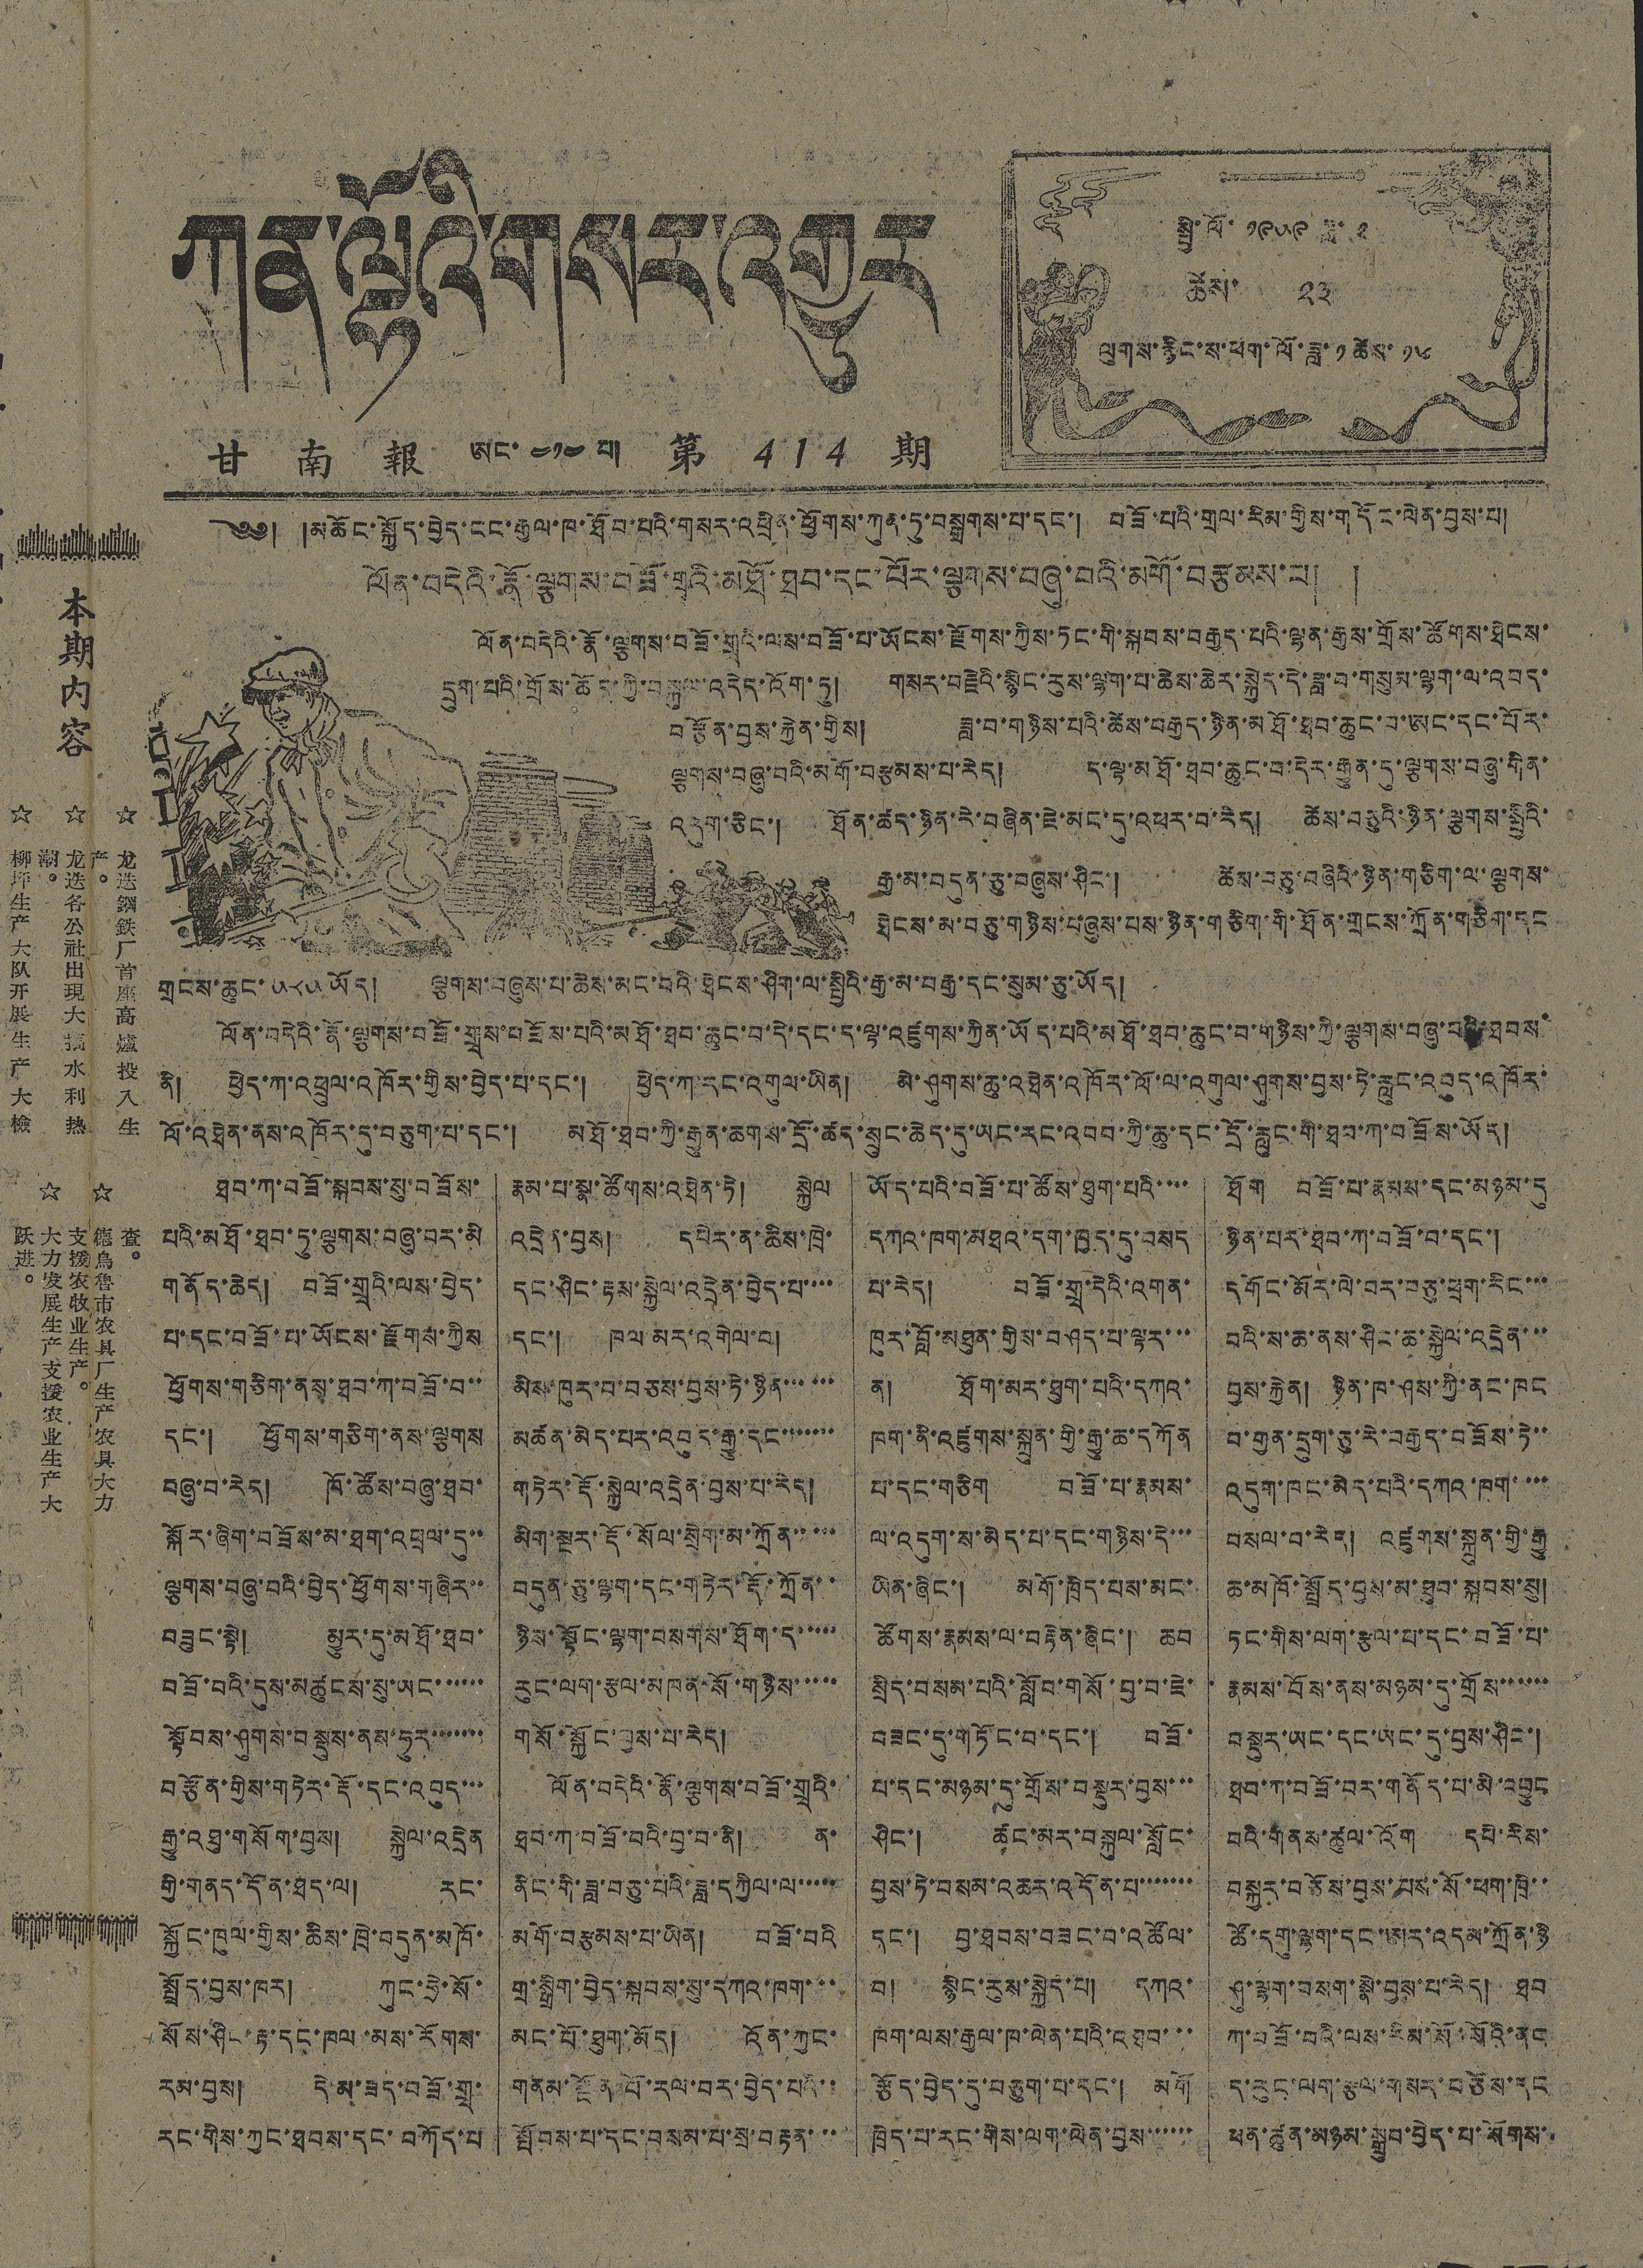ཀན་ལྷོའི་གསར་འགྱུར
甘 南 報 ཨང་ ༤༡༤ པ། 第 414 期
སྤྱི་ལོ་ ༡༩༥༩ ཟླ་ ༢
ཚེས་ ༢༣
ལུགས་རྙིང་ས་ཕག་ལོ་ཟླ་ ༡ ཚེས་ ༡༦
本期內容
☆ 龙迭鋼鉄厂首座高爐投入生
产。
☆ 龙迭各公社出現大搞水利热
潮。
☆ 柳坪生产大队开展生产大檢
查。
☆ 德烏魯市农具厂生产农具大力
支援农牧业生产。
☆ 大力发展生产支援农业生产大
跃进。
༄༅། །མཆོང་སྐྱོད་བྱེད་ངང་རྒྱལ་ཁ་ཐོབ་པའི་གསར་འཕྲིན་ཕྱོགས་ཀུན་ཏུ་བསྒྲགས་པ་དང་། བཟོ་པའི་གྲལ་རིམ་གྱིས་གདོང་ལེན་བྱས་པ།
ལོན་བདེའི་རྣོ་ལྕགས་བཟོ་གྲྭའི་མཐོ་ཐབ་དང་པོར་ལྕགས་བཞུ་བའི་མགོ་བརྩམས་པ། །
ལོན་བདེའི་རྣོ་ལྕགས་བཟོ་གྲྭའི་ལས་བཟོ་པ་ཡོངས་རྫོགས་ཀྱིས་ཏང་གི་སྐབས་བརྒྱད་པའི་ལྷན་རྒྱས་གྲོས་ཚོགས་ཐེངས་
དྲུག་པའི་གྲོས་ཆོད་ཀྱི་བསྐུལ་འདེད་འོག་ཏུ། གསར་བརྗེའི་སྙིང་རུས་ལྷག་པ་ཆེས་ཆེར་སྐྱེད་དེ་ཟླ་བ་གསུམ་ལྷག་ལ་འབད་
བརྩོན་བྱས་རྐྱེན་གྱིས། ཟླ་བ་གཉིས་པའི་ཚེས་བརྒྱད་ཉིན་མཐོ་ཐབ་ཆུང་བ་ཨང་དང་པོར་
ལྕགས་བཞུ་བའི་མགོ་བརྩམས་པ་རེད། ད་ལྟ་མཐོ་ཐབ་ཆུང་བ་དེར་རྒྱུན་དུ་ལྕགས་བཞུ་གིན་
འདུག་ཅིང་། ཐོན་ཚད་ཉིན་རེ་བཞིན་ཇེ་མང་དུ་འཕར་བ་རེད། ཚེས་བཅུའི་ཉིན་ལྕགས་སྤྱིའི་
རྒྱ་མ་བདུན་ཅུ་བཞུས་ཤིང་། ཚེས་བཅུ་བཞིའི་ཉིན་གཅིག་ལ་ལྕགས་
ཐེངས་མ་བཅུ་གཉིས་བཞུས་པས་ཉིན་གཅིག་གི་ཐོན་གྲངས་ཀྲོན་གཅིག་དང
གྲངས་ཆུང་ ༥༨༥ ཡོད། ལྕགས་བཞུས་པ་ཆེས་མང་བའི་ཐེངས་ཤིག་ལ་སྤྱིའི་རྒྱ་མ་བརྒྱ་དང་སུམ་ཅུ་ཡོད།
ལོན་བདེའི་རྣོ་ལྕགས་བཟོ་གྲྭས་བཟོས་པའི་མཐོ་ཐབ་ཆུང་བ་དེ་དང་ད་ལྟ་འཛུགས་ཀྱིན་ཡོད་པའི་མཐོ་ཐབ་ཆུང་བ་གཉིས་ཀྱི་ལྕགས་བཞུ་བའི་ཐབས་
ནི། ཕྱེད་ཀ་འཕྲུལ་འཁོར་གྱིས་བྱེད་པ་དང་། ཕྱེད་ཀ་རང་འགུལ་ཡིན། མེ་ཤུགས་ཆུ་འཐེན་འཁོར་ལོ་ལ་འགུལ་ཤུགས་བྱས་ཏེ་རླུང་འབུད་འཁོར་
ལོ་འཐེན་ནས་འཁོར་དུ་བཅུག་པ་དང་། མཐོ་ཐབ་ཀྱི་རྒྱུན་ཆགས་དྲོ་ཚད་སྲུང་ཆེད་དུ་ཡང་རང་འབབ་ཀྱི་ཆུ་དང་དྲོ་རླུང་གི་ཐབ་ཀ་བཟོས་ཡོད།
ཐབ་ཀ་བཟོ་སྐབས་སུ་བཟོས་
པའི་མཐོ་ཐབ་ཏུ་ལྕགས་བཞུ་བར་མི
གནོད་ཆེད། བཟོ་གྲྭའི་ལས་བྱེད་
པ་དང་བཟོ་པ་ཡོངས་རྫོགས་ཀྱིས་
ཕྱོགས་གཅིག་ནས་ཐབ་ཀ་བཟོ་བ་་
དང་། ཕྱོགས་གཅིག་ནས་ལྕགས
བཞུ་བ་རེད། ཁོ་ཚོས་བཞུ་ཐབ་
སྐོར་ཞིག་བཟོས་མ་ཐག་འཕྲལ་དུ་་
ལྕགས་བཞུ་བའི་བྱེད་ཕྱོགས་གཞིར་་
བཟུང་སྟེ། མྱུར་དུ་མཐོ་ཐབ་
བཟོ་བའི་དུས་མཚུངས་སུ་ཡང་་་་་་
སྟོབས་ཤུགས་བསྡུས་ནས་ཧུར་་་་་་་
བརྩོན་གྱིས་གཏེར་རྡོ་དང་འབུད་་་
རྒྱུ་འཐུ་གསོག་བྱས། སྐྱེལ་འདྲེན
གྱི་གནད་དོན་ཐད་ལ། རང་
སྐྱོང་ཁུལ་གྱིས་ཆིས་ཁྲེ་བདུན་མཁོ་
སྤྲོད་བྱས་ཁར། ཀུང་ཧྲེ་སོ་
སོས་ཤིང་རྟ་དང་ཁལ་མས་རོགས་
རམ་བྱས། དེ་མ་ཟད་བཟོ་གྲྭ་
རང་གིས་ཀྱང་ཐབས་དང་བཀོད་པ
རྣམ་པ་སྣ་ཚོགས་འཐེན་ཏེ། སྐྱེལ
འདྲེན་བྱས། དཔེར་ན་ཆིས་ཁྲེ་
དང་ཤིང་རྟས་སྐྱེལ་འདྲེན་བྱེད་པ་་་་
དང་། ཁལ་མར་འགེལ་བ།
མིས་ཁུར་བ་བཅས་བྱས་ཏེ་ཉིན་་་་་་
མཚན་མེད་པར་འབུད་རྒྱུ་དང་་་་་་་
གཏེར་རྡོ་སྐྱེལ་འདྲེན་བྱས་པ་རེད།
མིག་སྔར་རྡོ་སོལ་སྲེག་མ་ཀྲོན་་་་་
བདུན་ཅུ་ལྷག་དང་གཏེར་རྡོ་ཀྲོན་་
ཉིས་སྟོང་ལྷག་བསགས་ཐོག་ད་་་་་
རུང་ལག་རྩལ་མཁན་སོ་གཉིས་་་་་
གསོ་སྐྱོང་བྱ་པ་རེད།
ལོན་བདེའི་རྣོ་ལྕགས་བཟོ་གྲྭའི་
ཐབ་ཀ་བཟོ་བའི་བྱ་བ་ནི། ན་
ནིང་གི་ཟླ་བཅུ་པའི་ཟླ་དཀྱིལ་ལ་་་་་
མགོ་བརྩམས་པ་ཡིན། བཟོ་བའི་
གྲ་སྒྲིག་བྱེད་སྐབས་སུ་དཀའ་ཁག་་་
མང་པོ་ཐུག་མོད། འོན་ཀྱང་
གནམ་སྔོན་པོ་རལ་བར་བྱེད་པའི་་
སྤོབས་པ་དང་བསམ་པ་སྲ་བརྟན་་་
ཡོད་པའི་བཟོ་པ་ཚོས་ཐུག་པའི་་་་
དཀའ་ཁག་མཐའ་དག་ཁྱད་དུ་བསད
པ་རེད། བཟོ་གྲྭ་དེའི་འགན་
ཁུར་བློ་མཐུན་གྱིས་བཤད་པ་ལྟར་་་
ན། ཐོག་མར་ཐུག་པའི་དཀའ་
ཁག་ནི་འཛུགས་སྐྲུན་གྱི་རྒྱུ་ཆ་དཀོན
པ་དང་གཅིག བཟོ་པ་རྣམས་
ལ་འདུག་ས་མེད་པ་དང་གཉིས་དེ་་་
ཡིན་ཞིང་། མགོ་ཁྲིད་པས་མང་
ཚོགས་རྣམས་ལ་བརྟེན་ཞིང་། ཆབ
སྲིད་བསམ་པའི་སློབ་གསོ་བྱ་བ་ཇེ་
བཟང་དུ་གཏོང་བ་དང་། བཟོ་
པ་དང་མཉམ་དུ་གྲོས་བསྡུར་བྱས་་་
ཤིང་། ཚང་མར་བསྐུལ་སློང་
བྱས་ཏེ་བསམ་འཆར་འདོན་པ་་་་་་་
དང་། བྱ་ཐབས་བཟང་བ་འཚོལ་
བ། སྙིང་རུས་སྐྱེད་པ། དཀའ་
ཁག་ལས་རྒྱལ་ཁ་ལེན་པའི་འཐབ་་་
རྩོད་བྱེད་དུ་བཅུག་པ་དང་། མགོ
ཁྲིད་པ་རང་གིས་ལག་ལེན་བྱས་་་་་་
ཐོག བཟོ་པ་རྣམས་དང་མཉམ་དུ
ཉིན་པར་ཐབ་ཀ་བཟོ་བ་དང་།
དགོང་མོར་ལེ་བར་བཅུ་ཕྲག་རིང་་་
བའི་ས་ཆ་ནས་ཤིང་ཆ་སྐྱེལ་འདྲེན་་་
བྱས་རྐྱེན། ཉིན་ཁ་ཤས་ཀྱི་ནང་ཁང
བ་གྱན་དྲུག་ཅུ་རེ་བརྒྱད་བཟོས་ཏེ་་
འདུག་ཁང་མེད་པའི་དཀའ་ཁག་་་་
བསལ་བ་རེད། འཛུགས་སྐྲུན་གྱི་རྒྱུ
ཆ་མཁོ་སྤྲོད་བྱས་མ་ཐུབ་སྐབས་སུ།
ཏང་གིས་ལག་རྩལ་པ་དང་བཟོ་པ་
རྣམས་བོས་ནས་མཉམ་དུ་གྲོས་་་་་་
བསྡུར་ཡང་དང་ཡང་དུ་བྱས་ཤིང་།
ཐབ་ཀ་བཟོ་བར་གནོད་པ་མི་འབྱུང
བའི་གནས་ཚུལ་འོག དཔེ་རིས་
བསྐྱར་བཅོས་བྱས་པས་སོ་ཕག་ཁྲི་་
ཚོ་དགུ་ལྷག་དང་ཨར་འདམ་ཀྲོན་ཉི
ཤུ་ལྷག་བསག་སྣེ་བྱས་པ་རེད། ཐབ
ཀ་བཟོ་བའི་ལས་རིམ་སོ་སོའི་ནང
ད་རུང་ལག་རྩལ་གསར་བཅོས་དང
ཕན་ཚུན་མཉམ་སྒྲུབ་བྱེད་པ་སོགས་
